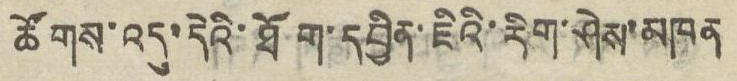ཚོགས་འདུ་དེའི་ཐོག་དབྱིན་ཇིའི་རིག་ཤེས་མཁན
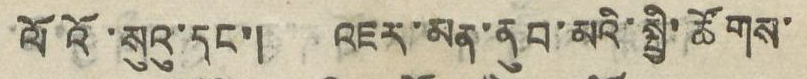ལོའོ་སུའུ་དང་། འཇར་མན་ནུབ་མའི་སྤྱི་ཚོགས་
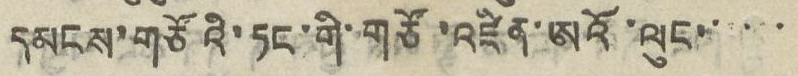དམངས་གཙོའི་ཏང་གི་གཙོ་འཛིན་ཨའོ་ལུང་་་་་་
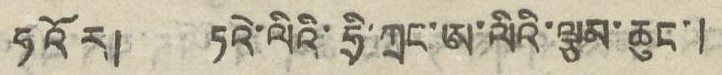ཧའོར། ཏའེ་ལིའི་ཧྲི་ཀྲང་ཨ་ལིའི་ལྕམ་ཆུང་།
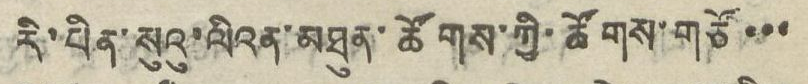རི་པིན་སུའུ་ལིའན་མཐུན་ཚོགས་ཀྱི་ཚོགས་གཙོ་་་
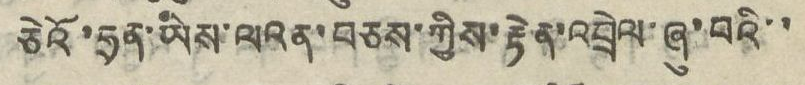ཅེའོ་ཧྲན་ཡིས་ལའན་བཅས་ཀྱིས་རྟེན་འབྲེལ་ཞུ་བའི་་
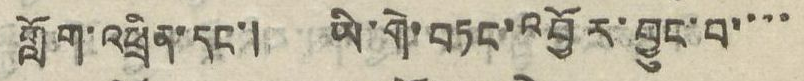གློག་འཕྱིན་དང་། ཡི་གེ་བཏང་འབྱོར་བྱུང་བ་་་་
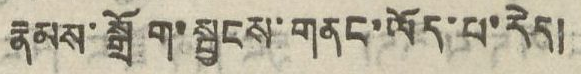རྣམས་སྒྲོག་སྦྱངས་གནང་ཡོད་པ་རེད།
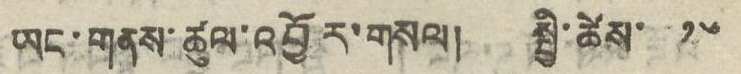ཡང་གནས་ཚུལ་འབྱོར་གསལ། སྤྱི་ཚེས་ ༡༦
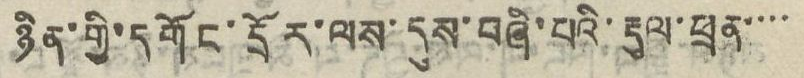ཉིན་གྱི་དགོང་དྲོར་ལས་དུས་བཞི་པའི་རྡུལ་ཕྲན་་་་
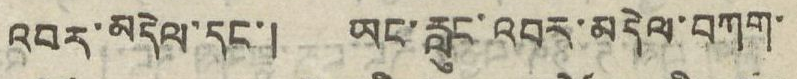འབར་མདེལ་དང་། ཡང་རླུང་འབར་མདེལ་བཀག་
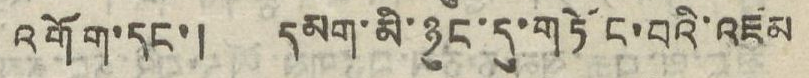འགོག་དང་། དམག་མི་ཉུང་དུ་གཏོང་བའི་འཛམ
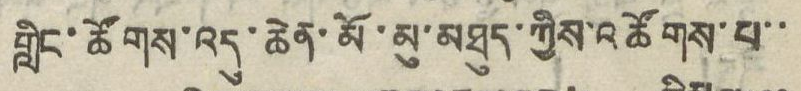གླིང་ཚོགས་འདུ་ཆེན་མོ་མུ་མཐུད་ཀྱིས་འཚོགས་པ་་
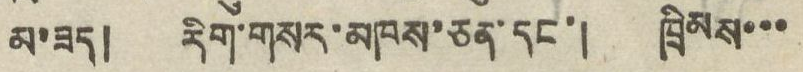མ་ཟད། རིག་གསར་མཁས་ཅན་དང་། ཁྲིམས་་་
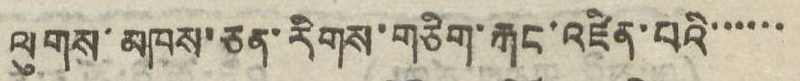ལུགས་མཁས་ཅན་རིགས་གཅིག་རྐང་འཛིན་པའི་་་་་་
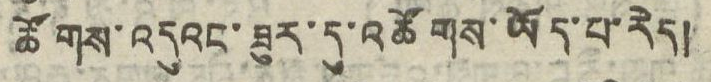ཚོགས་འདུའང་ཟུར་དུ་འཚོགས་ཡོད་པ་རེད།
